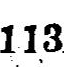113
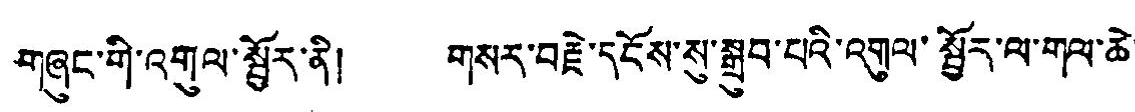གཞུང་གི་འགུལ་སྦྱོར་ནི། གསར་བརྗེ་དངོས་སུ་སྒྲུབ་པའི་འགུལ་སྦྱོར་ལ་གལ་ཆེ་
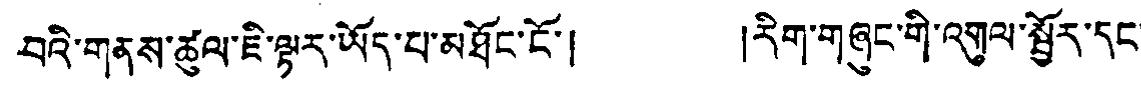བའི་གནས་ཚུལ་ཇི་ལྟར་ཡོད་པ་མཐོང་ངོ་། །རིག་གཞུང་གི་འགུལ་སྦྱོར་དང་
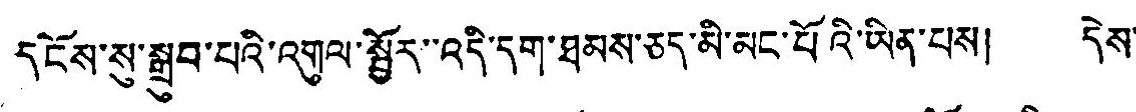དངོས་སུ་སྒྲུབ་པའི་འགུལ་སྦྱོར་འདི་དག་ཐམས་ཅད་མི་མང་པོའི་ཡིན་པས། དེས་
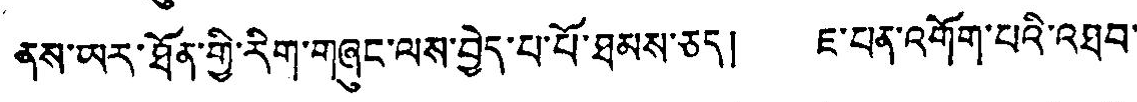ནས་ཡར་ཐོན་གྱི་རིག་གཞུང་ལས་བྱེད་པ་པོ་ཐམས་ཅད། ཇ་པན་འགོག་པའི་འཐབ་
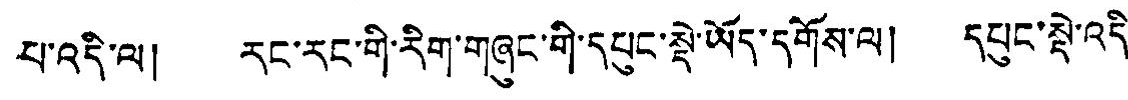པ་འདི་ལ། རང་རང་གི་རིག་གཞུང་གི་དཔུང་སྡེ་ཡོད་དགོས་ལ། དཔུང་སྡེ་འདི་
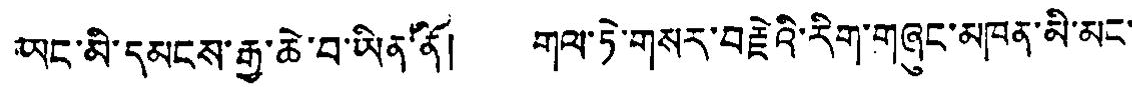ཡང་མི་དམངས་རྒྱ་ཆེ་བ་ཡིན་ནོ། གལ་ཏེ་གསར་བརྗེའི་རིག་གཞུང་མཁན་མི་མང་
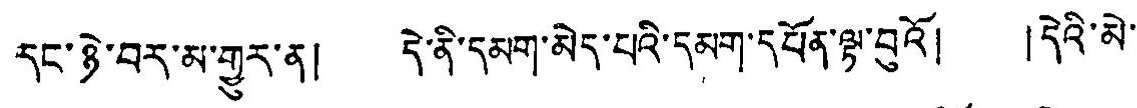དང་ཉེ་བར་མ་གྱུར་ན། དེ་ནི་དམག་མེད་པའི་དམག་དཔོན་ལྟ་བུའོ། །དེའི་མེ་
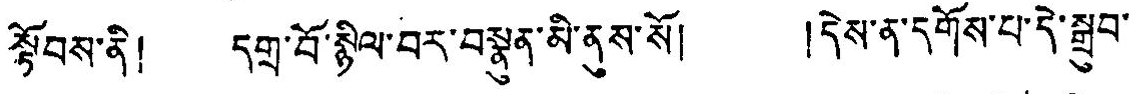སྟོབས་ནི། དགྲ་བོ་སྙིལ་བར་བསྣུན་མི་ནུས་སོ། །དེས་ན་དགོས་པ་དེ་སྒྲུབ་
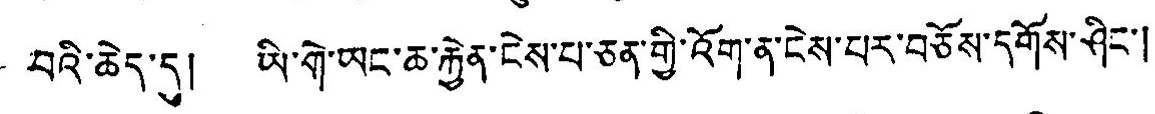བའི་ཆེད་དུ། ཡི་གེ་ཡང་ཆ་རྐྱེན་ངེས་པ་ཅན་གྱི་འོག་ན་ངེས་པར་བཅོས་དགོས་ཤིང་།
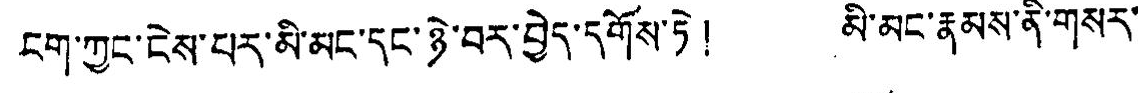ངག་ཀྱང་ངེས་པར་མི་མང་དང་ཉེ་བར་བྱེད་དགོས་ཏེ ། མི་མང་རྣམས་ནི་གསར་
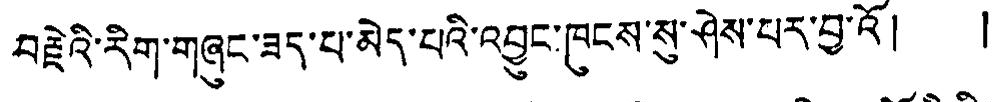བརྗེའི་རིག་གཞུང་ཟད་པ་མེད་པའི་འབྱུང་ཁུངས་སུ་ཤེས་པར་བྱ་འོ། །
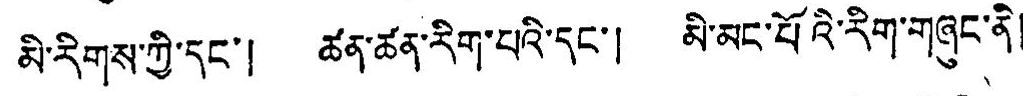མི་རིགས་ཀྱི་དང་། ཚན་ཚན་རིག་པའི་དང་། མི་མང་པོའི་རིག་གཞུང་ནི།
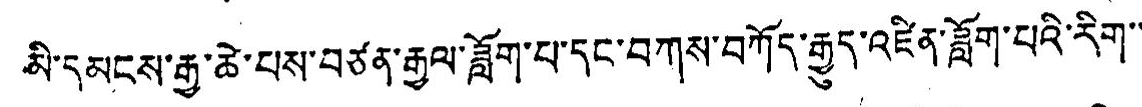མི་དམངས་རྒྱ་ཆེ་པས་བཙན་རྒྱལ་ཟློག་པ་དང་བཀས་བཀོད་རྒྱུད་འཛིན་ཟློག་པའི་རིག་་
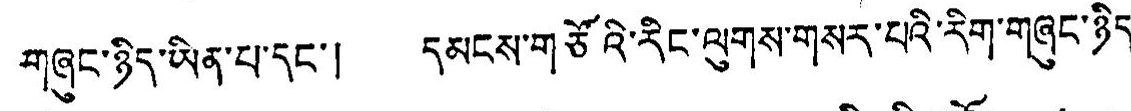གཞུང་ཉིད་ཡིན་པ་དང་། དམངས་གཙོའི་རིང་ལུགས་གསར་པའི་རིག་གཞུང་ཉིད་
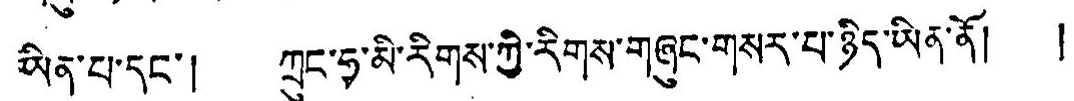ཡིན་པ་དང་། ཀྲུང་ཧྭ་མི་རིགས་ཀྱི་རིགས་གཞུང་གསར་པ་ཉིད་ཡིན་ནོ། །
